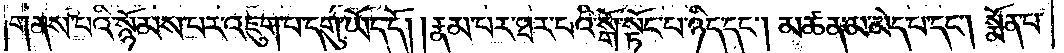གནས་པའི་སྙོམས་པར་འཇུག་པ་དགུ་ཡོད་དོ། །རྣམ་པར་ཐར་པའི་སྒོ་སྟོང་པ་ཉིད་དང་། མཚན་མ་མེད་པ་དང་། སྨོན་པ་
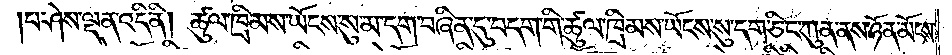པ་ཤེས་ལྡན་འདི་ནི། ཚུལ་ཁྲིམས་ཡོངས་སུ་མ་དག་བཞིན་དུ་བདག་གི་ཚུལ་ཁྲིམས་ཡོངས་སུ་དག་ཅིང་ཀུན་ནས་ཉོན་མོངས་
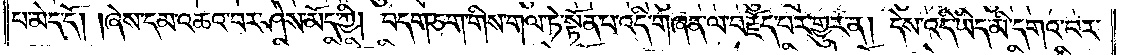པ་མེད་དོ། །ཞེས་དམ་འཆའ་བར་ཤེས་མོད་ཀྱི། བདག་ཅག་གིས་གལ་ཏེ་སྟོན་པ་འདི་གཞན་ལ་བརྗོད་པར་གྱུར་ན། དེས་འདི་ཡིད་མི་དགའ་བར་
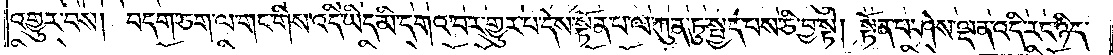འགྱུར་བས། བདག་ཅག་ལ་གང་གིས་འདི་ཡིད་མི་དགའ་བར་གྱུར་པ་དེས་སྟོན་པ་ལ་ཀུན་ཏུ་སྤྱད་པས་ཅི་བྱ་སྟེ། སྟོན་པ་ཤེས་ལྡན་འདི་རང་ཉིད་
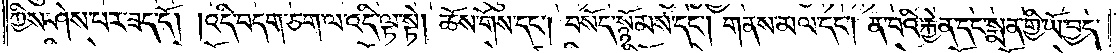ཀྱིས་ཤེས་པར་ཟད་དོ། །འདི་བདག་ཅག་ལ་འདི་ལྟ་སྟེ། ཆོས་གོས་དང༌། བསོད་སྙོམས་དང༌། གནས་མལ་དང༌། ན་བའི་རྐྱེན་དང་སྨན་གྱི་ཡོ་བྱད་
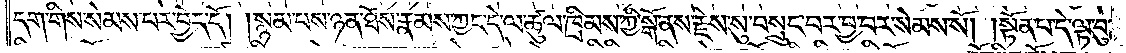དག་གིས་སེམས་པར་བྱེད་དོ། །སྙམ་པས་ཉན་ཐོས་རྣམས་ཀྱང་དེ་ལ་ཚུལ་ཁྲིམས་ཀྱི་སྒོ་ནས་རྗེས་སུ་བསྲུང་བར་བྱ་བར་སེམས་སོ། །སྟོན་པ་དེ་ལྟ་བུ་
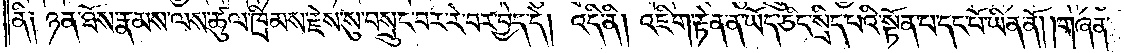ནི༑ ཉན་ཐོས་རྣམས་ལས་ཚུལ་ཁྲིམས་རྗེས་སུ་བསྲུང་བར་རེ་བར་བྱེད་དེ། འདི་ནི། འཇིག་རྟེན་ན་ཡོད་ཅིང་སྲིད་པའི་སྟོན་པ་དང་པོ་ཡིན་ནོ། །གཞན་
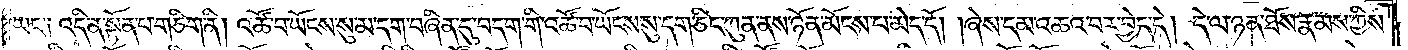ཡང༌། འདི་ན་སྟོན་པ་གཅིག་ནི། འཚོ་བ་ཡོངས་སུ་མ་དག་བཞིན་དུ་བདག་གི་འཚོ་བ་ཡོངས་སུ་དག་ཅིང་ཀུན་ནས་ཉོན་མོངས་པ་མེད་དོ། །ཞེས་དམ་འཆའ་བར་བྱེད་དེ། དེ་ལ་ཉན་ཐོས་རྣམས་ཀྱིས་
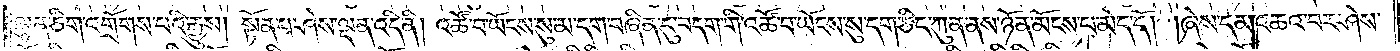ལྷན་ཅིག་འགྲོགས་པའི་རྒྱུས། སྟོན་པ་ཤེས་ལྡན་འདི་ནི། འཚོ་བ་ཡོངས་སུ་མ་དག་བཞིན་དུ་བདག་གི་འཚོ་བ་ཡོངས་སུ་དག་ཅིང་ཀུན་ནས་ཉོན་མོངས་པ་མེད་དོ། །ཞེས་དམ་འཆའ་བར་ཤེས་
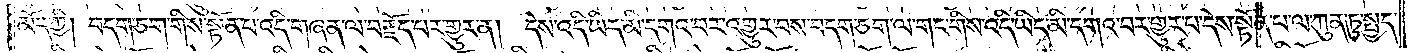མོད་ཀྱི། བདག་ཅག་གིས་སྟོན་པ་འདི་གཞན་ལ་བརྗོད་པར་གྱུར་ན། དེས་འདི་ཡིད་མི་དགའ་བར་འགྱུར་བས་བདག་ཅག་ལ་གང་གིས་འདི་ཡིད་མི་དགའ་བར་གྱུར་པ་དེས་སྟོན་པ་ལ་ཀུན་ཏུ་སྤྱད་
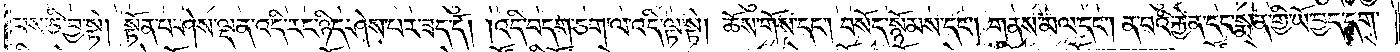པས་ཅི་བྱ་སྟེ། སྟོན་པ་ཤེས་ལྡན་འདི་རང་ཉིད་ཤེས་པར་ཟད་དོ། །འདི་བདག་ཅག་ལ་འདི་ལྟ་སྟེ། ཆོས་གོས་དང༌། བསོད་སྙོམས་དང༌། གནས་མལ་དང༌། ན་བའི་རྐྱེན་དང་སྨན་གྱི་ཡོ་བྱད་དག་
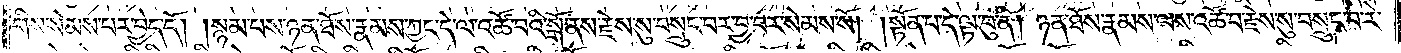གིས་སེམས་པར་བྱེད་དོ། །སྙམ་པས་ཉན་ཐོས་རྣམས་ཀྱང་དེ་ལ་འཚོ་བའི་སྒོ་ནས་རྗེས་སུ་བསྲུང་བར་བྱ་བར་སེམས་སོ། །སྟོན་པ་དེ་ལྟ་བུ་ནི། ཉན་ཐོས་རྣམས་ལས་འཚོ་བ་རྗེས་སུ་བསྲུང་བ་རེ་
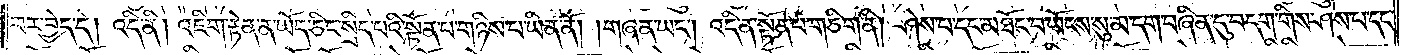བར་བྱེད་དེ། འདི་ནི། འཇིག་རྟེན་ན་ཡོད་ཅིང་སྲིད་པའི་སྟོན་པ་གཉིས་པ་ཡིན་ནོ། །གཞན་ཡང༌། འདི་ན་སྟོན་པ་གཅིག་ནི། ཤེས་པ་དང་མཐོང་བ་ཡོངས་སུ་མ་དག་བཞིན་དུ་བདག་གིས་ཤེས་པ་དང་
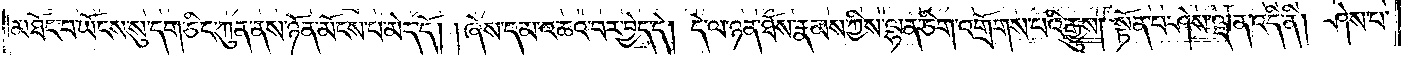མཐོང་བ་ཡོངས་སུ་དག་ཅིང་ཀུན་ནས་ཉོན་མོངས་པ་མེད་དོ། །ཞེས་དམ་འཆའ་བར་བྱེད་དེ། དེ་ལ་ཉན་ཐོས་རྣམས་ཀྱིས་ལྷན་ཅིག་འགྲོགས་པའི་རྒྱུས། སྟོན་པ་ཤེས་ལྡན་འདི་ནི། ཤེས་པ་
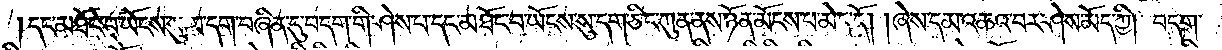དང་མཐོང་བ་ཡོངས་སུ་མ་དག་བཞིན་དུ་བདག་གི་ཤེས་པ་དང་མཐོང་བ་ཡོངས་སུ་དག་ཅིང་ཀུན་ནས་ཉོན་མོངས་པ་མེད་དོ། །ཞེས་དམ་འཆའ་བར་ཤེས་མོད་ཀྱི། བདག་
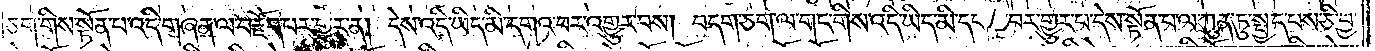ཅག་གིས་སྟོན་པ་འདི་གཞན་ལ་བརྗོད་པར་གྱུར་ན། དེས་འདི་ཡིད་མི་དགའ་བར་འགྱུར་པས། བདག་ཅག་ལ་གང་གིས་འདི་ཡིད་མི་དགའ་བར་གྱུར་པ་དེས་སྟོན་པ་ལ་ཀུན་ཏུ་སྤྱད་པས་ཅི་བྱ་
